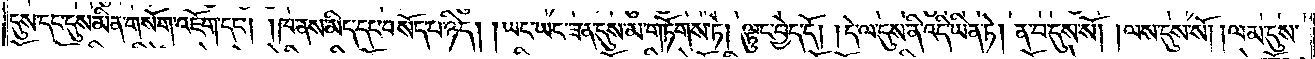དུས་དང་དུས་མིན་གསོག་འཇོག་དང༌། །ཁ་ནས་མིད་དང་བསོད་པ་ཉིད། །ཡང་ཡང་ཟ་ན་དུས་མ་གཏོགས་ཏེ། ལྟུང་བྱེད་དོ། །དེ་ལ་དུས་ནི་འདི་ཡིན་ཏེ། ན་བ་དུས་སོ། །ལས་དུས་སོ། །ལམ་དུས་
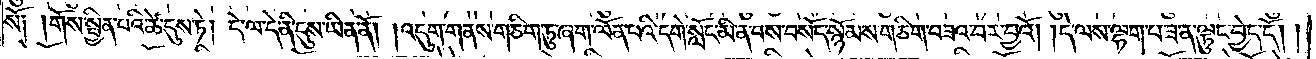སོ༑ །གོས་སྦྱིན་པའི་ཚེ་དུས་ཏེ། དེ་ལ་དེ་ནི་དུས་ཡིན་ནོ། །འདུག་གནས་གཅིག་ཏུ་ཞག་ལོན་པའི་དགེ་སློང་མི་ན་བས་བསོད་སྙོམས་གཅིག་བཟའ་བར་བྱའོ། །དེ་ལས་ལྷག་པ་ཟ་ན་ལྟུང་བྱེད་དོ། །
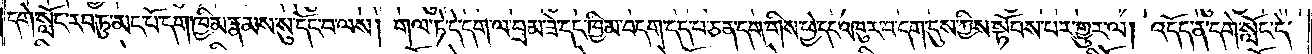དགེ་སློང་རབ་ཏུ་མང་པོ་དག་ཁྱིམ་རྣམས་སུ་དོང་བ་ལས། གལ་ཏེ་དེ་དག་ལ་བྲམ་ཟེ་དང་ཁྱིམ་བདག་དད་པ་ཅན་དག་གིས་ཕྱེ་དང་འཁུར་བ་དག་དུས་ཀྱིས་སྟོབས་པར་གྱུར་ལ། འདོད་ན་དགེ་སློང་དེ་
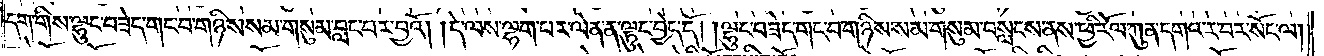དག་གིས་ལྷུང་བཟེད་གང་བ་གཉིས་སམ་གསུམ་བླང་བར་བྱའོ། །དེ་ལས་ལྷག་པར་ལེན་ན་ལྟུང་བྱེད་དོ། །ལྷུང་བཟེད་གང་བ་གཉིས་སམ་གསུམ་བསླངས་ནས་ཕྱི་རོལ་ཀུན་དགའ་ར་བར་སོང་ལ།
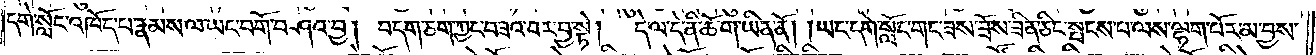དགེ་སློང་འཁོད་པ་རྣམས་ལ་ཡང་བགོ་བཤའ་བྱ། བདག་ཅག་ཀྱང་བཟའ་བར་བྱ་སྟེ།  དེ་ལ་དེ་ནི་ཆོ་ག་ཡིན་ནོ། །ཡང་དགེ་སློང་གང་ཟས་ཟོས་ཟིན་ཅིང་སྤངས་པ་ལས་ལྷག་པོར་མ་བྱས་
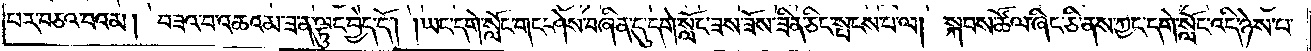པར་བཅའ་བའམ། བཟའ་བ་འཆའམ་ཟ་ན་ལྟུང་བྱེད་དོ། །ཡང་དགེ་སློང་གང་ཤེས་བཞིན་དུ་དགེ་སློང་ཟས་ཟོས་ཟིན་ཅིང་སྤངས་པ་ལ། སྐབས་ཚོལ་ཞིང་ཅི་ནས་ཀྱང་དགེ་སློང་འདི་ཉེས་པ་
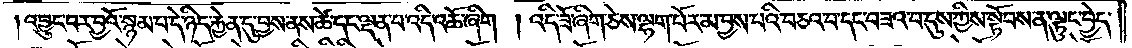།འབྱུང་བར་བྱའོ་སྙམ་པ་དེ་ཉིད་རྐྱེན་དུ་བྱས་ནས་ཚེ་དང་ལྡན་པ་འདི་འཆོ་ཞིག །འདི་ཟོ་ཞིག་ཅེས་ལྷག་པོར་མ་བྱས་པའི་བཅའ་བ་དང་བཟའ་བ་དུས་ཀྱིས་སྟོབས་ན་ལྟུང་བྱེད་
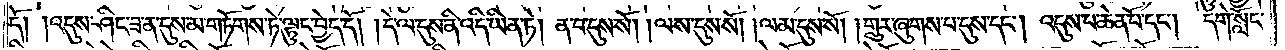དོ། །འདུས་ཤིང་ཟ་ན་དུས་མ་གཏོགས་ཏེ་ལྟུང་བྱེད་དོ། །དེ་ལ་དུས་ནི་འདི་ཡིན་ཏེ། ན་བ་དུས་སོ། །ལས་དུས་སོ། །ལམ་དུས་སོ། །གྲུར་ཞུགས་པ་དུས་དང༌། འདུས་པ་ཆེན་པོ་དང༌། དགེ་སློང་
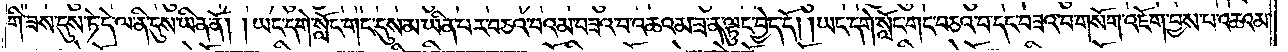གི་ཟས་དུས་ཏེ་དེ་ལ་ནི་དུས་ཡིན་ནོ། །ཡང་དགེ་སློང་གང་དུས་མ་ཡིན་པར་བཅའ་བའམ་བཟའ་བ་འཆའམ་ཟ་ན་ལྟུང་བྱེད་དོ། །ཡང་དགེ་སློང་གང་བཅའ་བ་དང་བཟའ་བ་གསོག་འཇོག་བྱས་པ་འཆའམ་
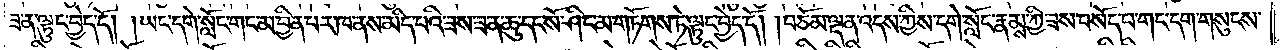ཟ་ན་ལྟུང་བྱེད་དོ། །ཡང་དགེ་སློང་གང་མ་བྱིན་པར་ཁ་ནས་མིད་པའི་ཟས་ཟ་ན་ཆུ་དང་སོ་ཤིང་མ་གཏོགས་ཏེ་ལྟུང་བྱེད་དོ། །བཅོམ་ལྡན་འདས་ཀྱིས་དགེ་སློང་རྣམས་ཀྱི་ཟས་བསོད་པ་གང་དག་གསུངས་
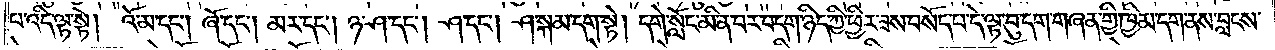པ་འདི་ལྟ་སྟེ། འོ་མ་དང༌། ཞོ་དང༌། མར་དང༌། ཉ་ཤ་དང༌། ཤ་དང༌། ཤ་སྐམ་དག་སྟེ། དགེ་སློང་མི་ན་བར་བདག་ཉིད་ཀྱི་ཕྱིར་ཟས་བསོད་པ་དེ་ལྟ་བུ་དག་གཞན་གྱི་ཁྱིམ་དག་ནས་བླངས་
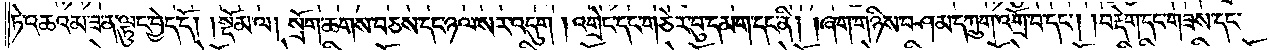ཏེ་འཆའམ་ཟ་ན་ལྟུང་བྱེད་དོ།    །སྡོམ་ལ། སྲོག་ཆགས་བཅས་དང་ཉལ་སར་འདུག །འགྲེང་དང་གཅེར་བུ་དམག་དང་ནི། །ཞག་གཉིས་བཤམ་དཀྲུག་འགྲོ་བ་དང༌། །བརྡེག་དང་གཟས་དང་
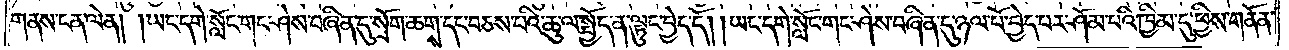གནས་ངན་ལེན། །ཡང་དགེ་སློང་གང་ཤེས་བཞིན་དུ་སྲོག་ཆག་དང་བཅས་པའི་ཆུ་ལ་སྤྱོད་ན་ལྟུང་བྱེད་དོ། །ཡང་དགེ་སློང་གང་ཤེས་བཞིན་དུ་ཉལ་པོ་བྱེད་པར་ཤོམ་པའི་ཁྱིམ་དུ་ཕྱིས་གནོན་
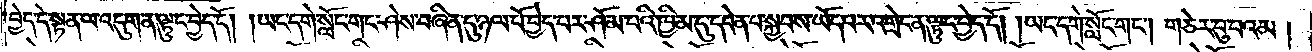བྱེད་དེ་སྟན་ལ་འདུག་ན་ལྟུང་བྱེད་དོ། །ཡང་དགེ་སློང་གང་ཤེས་བཞིན་དུ་ཉལ་པོ་བྱེད་པར་ཤོམ་པའི་ཁྱིམ་དུ་དབེན་པ་སྐྱབས་ཡོད་པར་འགྲེང་ན་ལྟུང་བྱེད་དོ། །ཡང་དགེ་སློང་གང༌། གཅེར་བུ་པའམ།
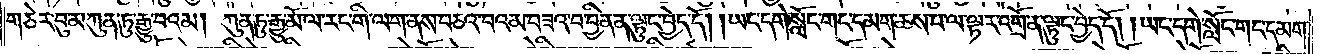གཅེར་བུ་མ་ཀུན་ཏུ་རྒྱུ་བའམ། ཀུན་ཏུ་རྒྱུ་མོ་ལ་རང་གི་ལག་ནས་བཅའ་བའམ་བཟའ་བ་བྱིན་ན་ལྟུང་བྱེད་དོ། །ཡང་དགེ་སློང་གང་དམག་ཆས་པ་ལ་ལྟར་འགྲོ་ན་ལྟུང་བྱེད་དོ། །ཡང་དགེ་སློང་གང་དམག་
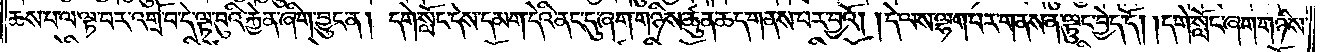ཆས་པ་ལ་ལྟ་བར་འགྲོ་བ་དེ་ལྟ་བུའི་རྐྱེན་ཞིག་བྱུང་ན། དགེ་སློང་དེས་དམག་དེའི་ནང་དུ་ཞག་གཉིས་ཚུན་ཆད་གནས་པར་བྱའོ། །དེ་ལས་ལྷག་པར་གནས་ན་ལྟུང་བྱེད་དོ། །དགེ་སློང་ཞག་གཉིས་
